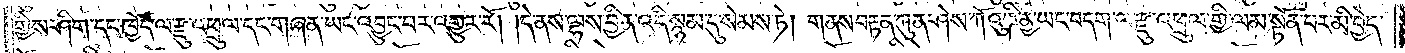གྱིས་ཤིག་དང་ཁྱོད་ལ་རྫུ་འཕྲུལ་དང་གཞན་ཡང་འབྱུང་བར་འགྱུར་རོ། །དེ་ནས་ལྷས་བྱིན་འདི་སྙམ་དུ་སེམས་ཏེ། གནས་བརྟན་ཀུན་ཤེས་ཀོའུ་ཌི་ནྱ་ཡང་བདག་ལ་རྫུ་འཕྲུལ་གྱི་ལམ་སྟོན་པར་མི་བྱེད་
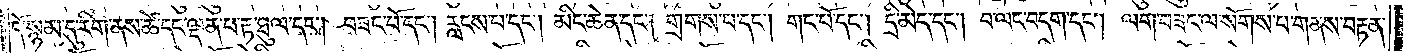དོ་སྙམ་དུ་རིག་ནས་ཚེ་དང་ལྡན་པ་རྟ་ཐུལ་དང༌། བཟང་པོ་དང༌། རླངས་པ་དང༌། མིང་ཆེན་དང༌། གྲགས་པ་དང༌། གང་པོ་དང༌། དྲི་མེད་དང༌། བ་ལང་བདག་དང༌། ལག་བཟང་ལ་སོགས་པ་གནས་བརྟན་
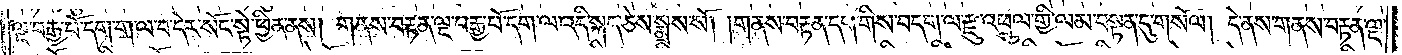ལྔ་བརྒྱ་པོ་དག་ག་ལ་བ་དེར་སོང་སྟེ་ཕྱིན་ནས། གནས་བརྟན་ལྔ་བརྒྱ་པོ་དག་ལ་འདི་སྐད་ཅེས་སྨྲས་སོ། །གནས་བརྟན་དག་གིས་བདག་ལ་རྫུ་འཕྲུལ་གྱི་ལམ་བསྟན་དུ་གསོལ། དེ་ནས་གནས་བརྟན་ལྔ་
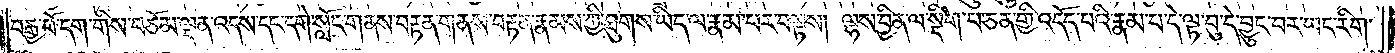བརྒྱ་པོ་དག་གིས་བཅོམ་ལྡན་འདས་དང་དགེ་སློང་གནས་བརྟན་གནས་བརྟན་རྣམས་ཀྱི་ཐུགས་ཡིད་ལ་རྣམ་པར་བལྟས། ལྷས་བྱིན་ལ་སྡིག་པ་ཅན་གྱི་འདོད་པའི་རྣམ་པ་དེ་ལྟ་བུ་དེ་བྱུང་བར་ཡང་རིག་
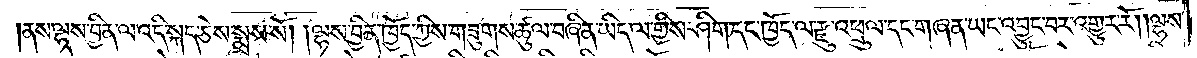ནས་ལྷས་བྱིན་ལ་འདི་སྐད་ཅེས་སྨྲས་སོ། །ལྷས་བྱིན་ཁྱོད་ཀྱིས་གཟུགས་ཚུལ་བཞིན་ཡིད་ལ་གྱིས་ཤིག་དང་ཁྱོད་ལ་རྫུ་འཕྲུལ་དང་གཞན་ཡང་འབྱུང་བར་འགྱུར་རོ། །ལྷས་
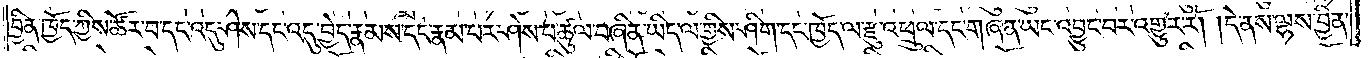བྱིན་ཁྱོད་ཀྱིས་ཚོར་བ་དང་འདུ་ཤེས་དང་འདུ་བྱེད་རྣམས་དང་རྣམ་པར་ཤེས་པ་ཚུལ་བཞིན་ཡིད་ལ་གྱིས་ཤིག་དང་ཁྱོད་ལ་རྫུ་འཕྲུལ་དང་གཞན་ཡང་འབྱུང་བར་འགྱུར་རོ། །དེ་ནས་ལྷས་བྱིན་
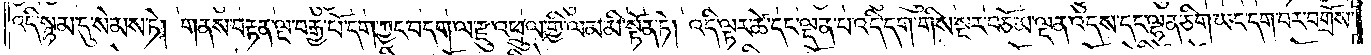འདི་སྙམ་དུ་སེམས་ཏེ། གནས་བརྟན་ལྔ་བརྒྱ་པོ་དག་ཀྱང་བདག་ལ་རྫུ་འཕྲུལ་གྱི་ལམ་མི་སྟོན་ཏེ། འདི་ལྟར་ཚེ་དང་ལྡན་པ་འདི་དག་གིས་སྔར་བཅོམ་ལྡན་འདས་དང་ལྷན་ཅིག་ཡང་དག་པར་བགྲོས་
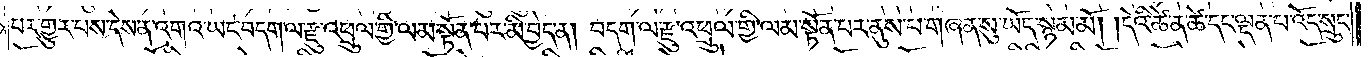པར་གྱུར་པས་དེས་ན་འགའ་ཡང་བདག་ལ་རྫུ་འཕྲུལ་གྱི་ལམ་སྟོན་པར་མི་བྱེད་ན། བདག་ལ་རྫུ་འཕྲུལ་གྱི་ལམ་སྟོན་པར་ནུས་པ་གཞན་སུ་ཡོད་སྙམ་མོ། །དེའི་ཚེ་ན་ཚེ་དང་ལྡན་པ་འོད་སྲུང་
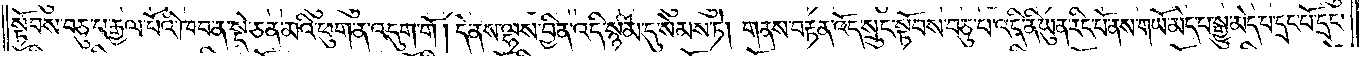སྟོབས་བཅུ་པ་རྒྱལ་པོའི་ཁབ་ན་སྡེ་ཅན་མའི་ཕུག་ན་འདུག་གོ། དེ་ནས་ལྷས་བྱིན་འདི་སྙམ་དུ་སེམས་ཏེ། གནས་བརྟན་འོད་སྲུང་སྟོབས་བཅུ་པ་འདི་ནི་ཡུན་རིང་པོ་ནས་གཡོ་མེད་པ་སྒྱུ་མེད་པ་དྲང་པོ་དྲང་
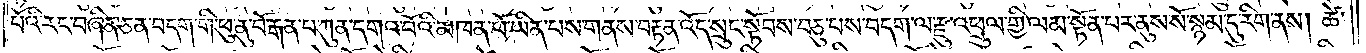པོའི་རང་བཞིན་ཅན་བདག་གི་ཕུ་ནུ་བོ་རྒན་པ་ཀུན་དགའ་བོའི་མཁན་པོ་ཡིན་པས་གནས་བརྟན་འོད་སྲུང་སྟོབས་བཅུ་པས་བདག་ལ་རྫུ་འཕྲུལ་གྱི་ལམ་སྟོན་པར་ནུས་སོ་སྙམ་དུ་རིག་ནས། ཚེ་
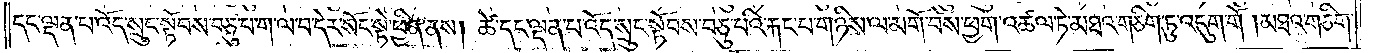དང་ལྡན་པ་འོད་སྲུང་སྟོབས་བཅུ་པ་ག་ལ་བ་དེར་སོང་སྟེ་ཕྱིན་ནས། ཚེ་དང་ལྡན་པ་འོད་སྲུང་སྟོབས་བཅུ་པའི་རྐང་པ་གཉིས་ལ་མགོ་བོས་ཕྱག་འཚལ་ཏེ་མཐའ་གཅིག་ཏུ་འདུག་གོ །མཐའ་གཅིག་
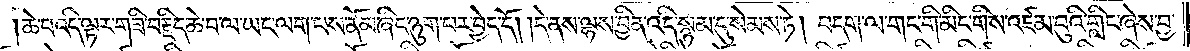ཆེ་བ་འདི་ལྟར་གཟི་བརྗིད་ཆེ་བ་ལ་ཡང་ལག་པས་ནོམ་ཞིང་ཉུག་པར་བྱེད་དོ། །དེ་ནས་ལྷས་བྱིན་འདི་སྙམ་དུ་སེམས་ཏེ། བདག་ལ་གང་གི་མིང་གིས་འཛམ་བུའི་གླིང་ཞེས་བྱ་
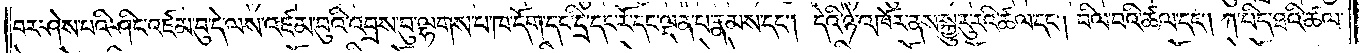བར་ཤེས་པའི་ཤིང་འཛམ་བུ་དེ་ལས་འཛམ་བུའི་འབྲས་བུ་ལྷགས་པ་ཁ་དོག་དང་དྲི་དང་རོ་དང་ལྡན་པ་རྣམས་དང༌། དེའི་ཉེ་འཁོར་ནས་སྐྱུ་རུ་རའི་ཚལ་དང༌། བིལ་བའི་ཚལ་དང༌། ཀ་པིད་ཐའི་ཚལ་
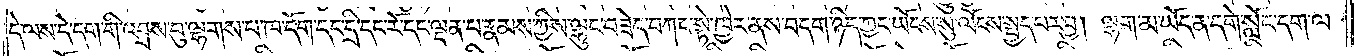དེ་ལས་དེ་དག་གི་འབྲས་བུ་ལྷགས་པ་ཁ་དོག་དང་དྲི་དང་རོ་དང་ལྡན་པ་རྣམས་ཀྱིས་ལྷུང་བཟེད་བཀང་སྟེ་ཁྱེར་ནས་བདག་ཉིད་ཀྱང་ཡོངས་སུ་ལོངས་སྤྱད་པར་བྱ། ལྷག་མ་ཡོད་ན་དགེ་སློང་དག་ལ་
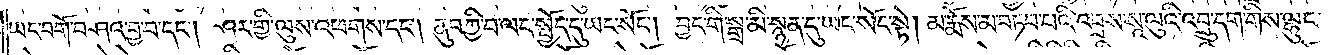ཡང་བགོ་བཤའ་བྱ་བ་དང༌། ཤར་གྱི་ལུས་འཕགས་དང༌། ནུབ་ཀྱི་བ་ལང་སྤྱོད་དུ་ཡང་སོང༌། བྱང་གི་སྒྲ་མི་སྙན་དུ་ཡང་སོང་སྟེ། མ་རྨོས་མ་བཏབ་པའི་འབྲས་སཱ་ལུའི་འབྲུ་དག་གིས་ལྷུང་
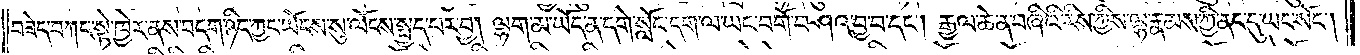བཟེད་བཀང་སྟེ་ཁྱེར་ནས་བདག་ཉིད་ཀྱང་ཡོངས་སུ་ལོངས་སྤྱད་པར་བྱ། ལྷག་མ་ཡོད་ན་དགེ་སློང་དག་ལ་ཡང་བགོ་བཤའ་བྱ་བ་དང༌། རྒྱལ་ཆེན་བཞིའི་རིས་ཀྱིས་ལྷ་རྣམས་ཀྱི་ནང་དུ་ཡང་སོང༌།
